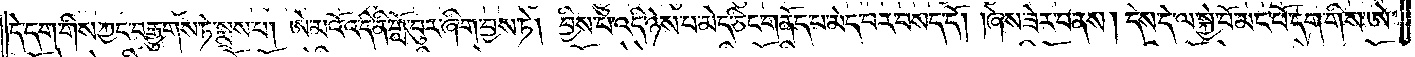དེ་དག་གིས་ཀྱང་བརྒྱུགས་ཏེ་སྨྲས་པ། ཨེ་མའོ་འདི་ནི་གློ་བུར་ཞིག་བྱས་ཏེ། བྱིས་པ་འདི་ཉེས་པ་མེད་ཅིང་གནོད་པ་མེད་པར་བསད་དོ། །ཞེས་ཟེར་པ་ནས། དེས་དེ་ལ་སྐྱེ་བོ་མང་པོ་དག་གིས་ཨེ་
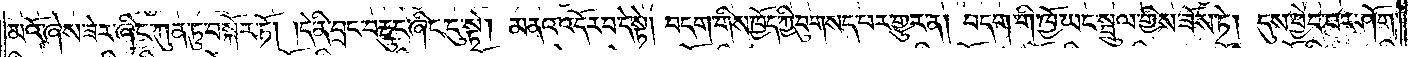མའོ་ཞེས་ཟེར་ཞིང་ཀུན་ཏུ་བསྐོར་ཏོ། །དེ་ནི་བྲང་བརྡུང་ཞིང་ངུ་སྟེ། མནའ་འདོར་བ་དེ་སྟེ། བདག་གིས་ཁྱོད་ཀྱི་བུ་གསད་པར་གྱུར་ན། བདག་གི་ཁྱོ་ཡང་སྦྲུལ་གྱིས་ཟོས་ཏེ། དུས་བྱེད་པར་ཤོག་
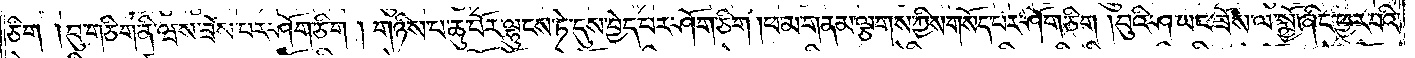ཅིག །བུ་གཅིག་ནི་ཝས་ཟོས་པར་ཤོག་ཅིག །གཉིས་པ་ཆུ་བོར་ལྷུངས་ཏེ་དུས་བྱེད་པར་ཤོག་ཅིག །ཕ་མ་གནམ་ལྕགས་ཀྱིས་གསོད་པར་ཤོག་ཅིག །བུའི་ཤ་ཡང་ཟོས་ལ་སྨྱོ་ཞིང་ཕྱར་བའི་
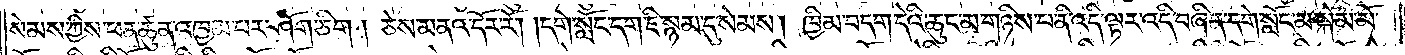སེམས་ཀྱིས་ཕན་ཚུན་འཁྱམ་པར་ཤོག་ཅིག །ཅེས་མནའ་དོར་རོ། །དགེ་སློང་དག་ཇི་སྙམ་དུ་སེམས། ཁྱིམ་བདག་དེའི་ཆུང་མ་གཉིས་པ་ནི་འདི་ལྟར་འདི་བཞིན་དགེ་སློང་མ་སྐེམ་མོ་
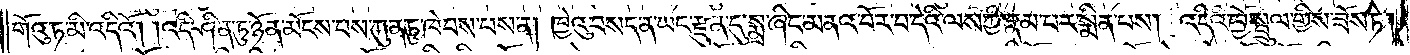གོའུ་ཏ་མི་འདིའོ། །འདི་ཤིན་ཏུ་ཉོན་མོངས་པས་ཀུན་ཏུ་ཁེབས་པས་ན། ཁྱེའུ་བསད་ན་ཡང་རྫུན་དུ་སྨྲ་ཞིང་མནའ་བོར་བ་དེའི་ལས་ཀྱི་རྣམ་པར་སྨིན་པས། འདིའི་ཁྱོ་སྦྲུལ་གྱིས་ཟོས་ཏེ།
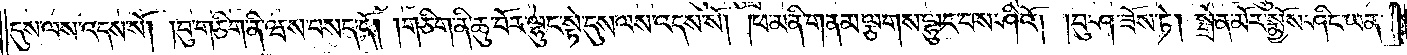དུས་ལས་འདས་སོ། །བུ་གཅིག་ནི་ཝས་བསད་དོ། །གཅིག་ནི་ཆུ་བོར་ལྷུང་སྟེ་དུས་ལས་འདས་སོ། །ཕ་མ་ནི་གནམ་ལྕགས་ལྷུང་བས་ཤིའོ། །བུ་ཤ་ཟོས་ཏེ། སྒྲེན་མོར་སྨྱོས་ཤིང་ཡན་
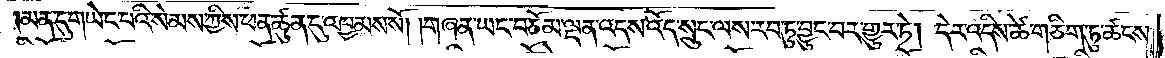མན་དུ་གཡེང་པའི་སེམས་ཀྱིས་ཕན་ཚུན་དུ་འཁྱམས་སོ། །གཞན་ཡང་བཅོམ་ལྡན་འདས་འོད་སྲུང་ལས་རབ་ཏུ་བྱུང་བར་གྱུར་ཏེ། དེར་འདིས་ཚེ་གཅིག་ཏུ་ཚངས་
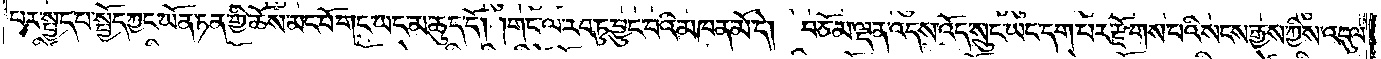པར་སྤྱད་པ་སྤྱོད་ཀྱང་ཡོན་ཏན་གྱི་ཆོས་མང་པོ་གང་ཡང་མ་ཆུད་དོ། །གང་ལ་རབ་ཏུ་བྱུང་བའི་མཁན་མོ་དེ། བཅོམ་ལྡན་འདས་འོད་སྲུང་ཡང་དག་པར་རྫོགས་པའི་སངས་རྒྱས་ཀྱིས་འདུལ་
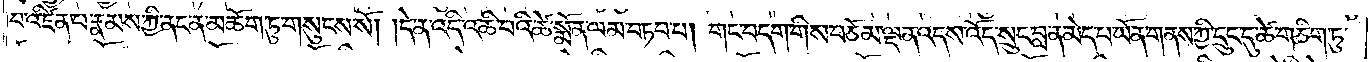བ་འཛིན་པ་རྣམས་ཀྱི་ནང་ན་མཆོག་ཏུ་གསུངས་སོ། །དེ་ན་འདི་འཆི་བའི་ཚེ་སྨོན་ལམ་བཏབ་པ། གང་བདག་གིས་བཅོམ་ལྡན་འདས་འོད་སྲུང་བླ་ན་མེད་པ་ཡོན་གནས་ཀྱི་དྲུང་དུ་ཚེ་གཅིག་ཏུ་
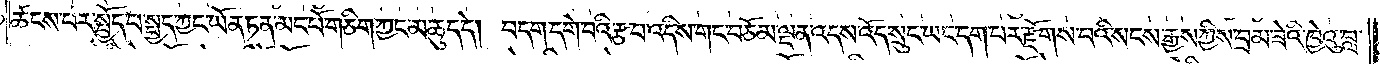ཚངས་པར་སྤྱོད་པ་སྤྱད་ཀྱང་ཡོན་ཏན་མང་པོ་གཅིག་ཀྱང་མ་ཆུད་དེ། བདག་དགེ་བའི་རྩ་བ་འདིས་གང་བཅོམ་ལྡན་འདས་འོད་སྲུང་ཡང་དག་པར་རྫོགས་པའི་སངས་རྒྱས་ཀྱིས་བྲམ་ཟེའི་ཁྱེའུ་བླ་
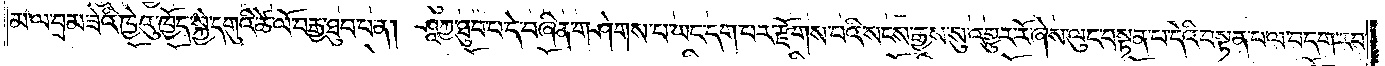མ་ལ་བྲམ་ཟེའི་ཁྱེའུ་ཁྱོད་སྐྱེ་དགུའི་ཚེ་ལོ་བརྒྱ་ཐུབ་པ་ན། ཤཱཀྱ་ཐུབ་པ་དེ་བཞིན་གཤེགས་པ་ཡང་དག་པར་རྫོགས་པའི་སངས་རྒྱས་སུ་འགྱུར་རོ་ཞེས་ལུང་བསྟན་པ་དེའི་བསྟན་པ་ལ་བདག་རབ་
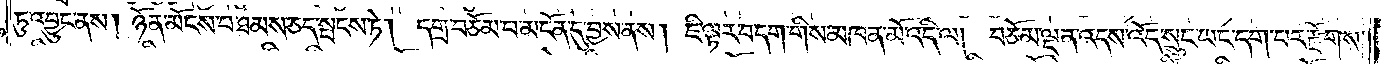ཏུ་འབྱུང་ནས། ཉོན་མོངས་པ་ཐམས་ཅད་སྤངས་ཏེ། དགྲ་བཅོམ་པ་མངོན་དུ་བྱས་ནས། ཇི་ལྟར་བདག་གིས་མཁན་མོ་འདི་ལ། བཅོམ་ལྡན་འདས་འོད་སྲུང་ཡང་དག་པར་རྫོགས་
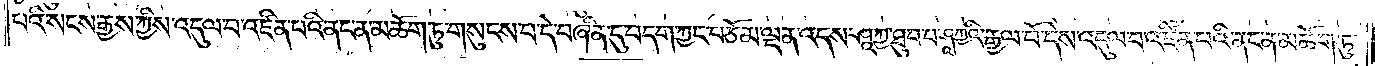པའི་སངས་རྒྱས་ཀྱིས་འདུལ་བ་འཛིན་པའི་ནང་ན་མཆོག་ཏུ་གསུངས་པ་དེ་བཞིན་དུ་བདག་ཀྱང་བཅོམ་ལྡན་འདས་ཤཱཀྱའི་རྒྱལ་པོ་དེས་འདུལ་བ་འཛིན་པ་ནང་ན་མཆོག་ཏུ་
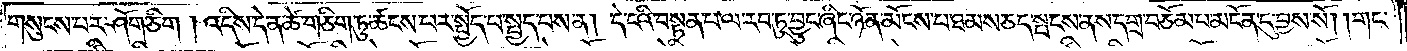གསུངས་པར་ཤོག་ཅིག །འདིས་དེ་ན་ཚེ་གཅིག་ཏུ་ཚངས་པར་སྤྱོད་པ་སྤྱད་པས་ན། དེ་ངའི་བསྟན་པ་ལ་རབ་ཏུ་བྱུང་ཞིང་ཉོན་མོངས་པ་ཐམས་ཅད་སྤངས་ནས་དགྲ་བཅོམ་པ་མངོན་དུ་བྱས་སོ། །གང་
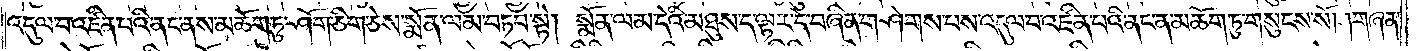འདུལ་བ་འཛིན་པའི་ནང་ནས་མཆོག་ཏུ་ཤོག་ཅིག་ཅེས་སྨོན་ལམ་བཏབ་སྟེ། སྨོན་ལམ་དེའི་མཐུས་ད་ལྟར་དེ་བཞིན་གཤེགས་པས་འདུལ་བ་འཛིན་པའི་ནང་ན་མཆོག་ཏུ་གསུངས་སོ། །གཞན་
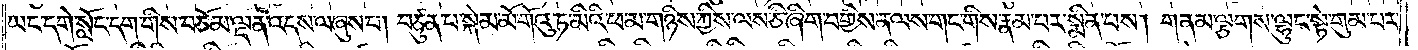ཡང་དགེ་སློང་དག་གིས་བཅོམ་ལྡན་འདས་ལ་ཞུས་པ། བཙུན་པ་སྐེམ་མོ་གོའུ་ཏ་མིའི་ཕ་མ་གཉིས་ཀྱིས་ལས་ཅི་ཞིག་བགྱིས་ན་ལས་གང་གིས་རྣམ་པར་སྨིན་པས། གནམ་ལྕགས་ལྷུང་སྟེ་གུམ་པར་
